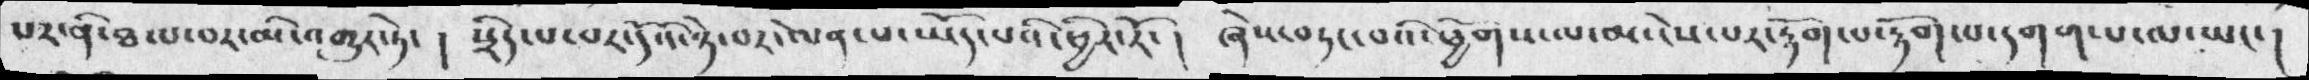པར་ནི་ཐལ་བར་མི་འགྱུར་ཏེ་། སྲིད་པ་བར་དོའི་ཉེ་བར་ལེན་པ་ཡོད་པའི་ཕྱིར་རོ་། ཞེས་བཏང་བའི་ཕྱོགས་ལ་མ་ངེས་པར་རྟོག་པ་རྟོག་པ་དགག་པ་ལ་ཡང་།
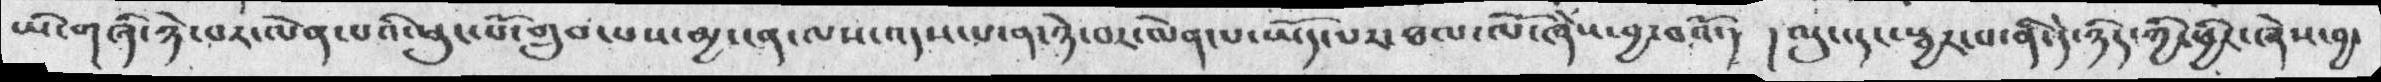ཡི་གཞི་ཉེ་བར་ལེན་པའི་ཕུང་པོ་གྲུབ་པས་མྱ་ངན་ལས་འདས་པ་ན་ཉེ་བར་ལེན་པ་ཡོད་པར་ཐལ་ལོ་ཞེས་བྱ་བའོ་། །ལུང་དང་སྦྱར་པ་ནི་དེ་ཉིད་ཀྱི་ཕྱིར་ཞེས་བྱ་
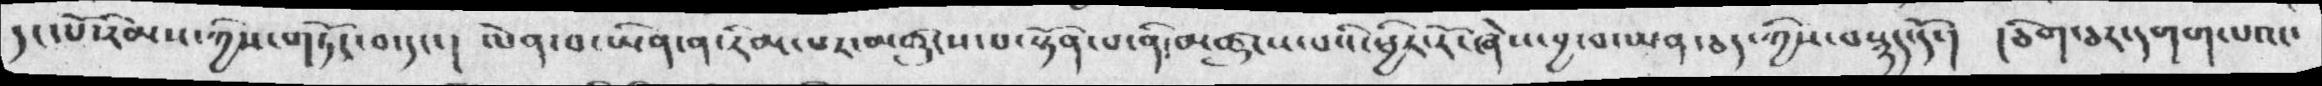དང་པོ་རིམས་ཀྱིས་གཏོང་བ་དང་།  ལེན་བ་ཡིན་ན་རིམ་པར་མཚུངས་པ་སྟོན་པ་ནི་མཚུངས་པའི་ཕྱིར་རོ་ཞེས་བྱ་བ་ཡན་ཅད་ཀྱིས་བསྙད་དོ་།  །ཅིག་ཅར་དགག་པའང་
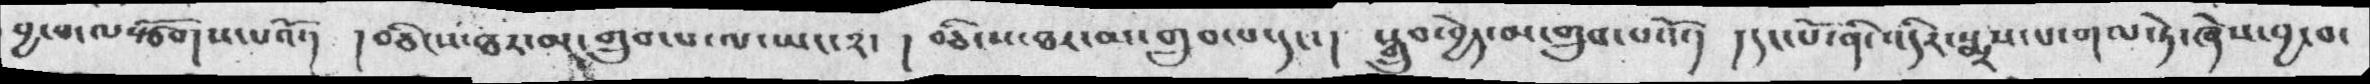བྱ་བ་ལསྩོགས་པའོ་།  །བཅིངས་ཐར་མ་གྲུབ་པ་ལ་ཡང་༢་ ། བཅིངས་ཐར་མ་གྲུབ་པ་དང་།  སྒྲུབ་བྱེད་མ་གྲུབ་པའོ་།  །དང་པོ་ནི་འདིར་སྨྲས་པ་གལ་ཏེ་ཞེས་བྱ་བ་
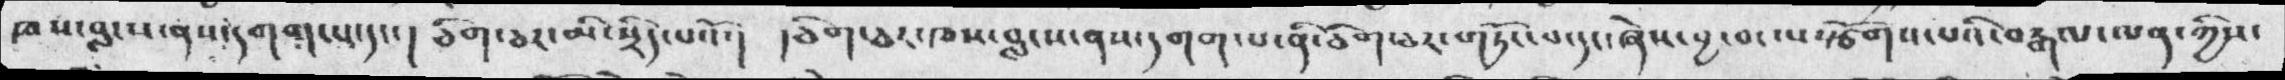ཁས་བླངས་ནས་དགག་པ་དང་། ཅིག་ཅར་མི་སྲིད་པའོ་།  །ཅིག་ཅར་ཁས་བླངས་ནས་དགག་པ་ནི་ཅིག་ཅར་གཏོང་པ་དང་ཞེས་བྱ་བ་ལསྩོགས་པའི་བརྒལ་ལན་ཀྱིས་
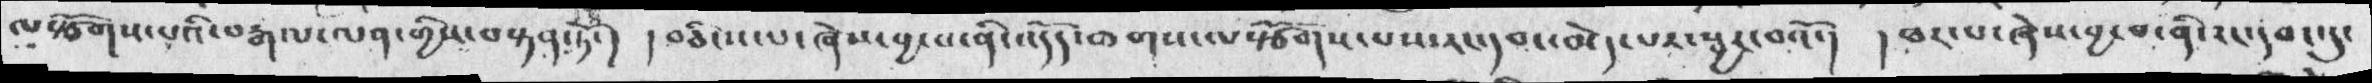ལསྩོགས་པའི་བརྒལ་ལན་གྱིས་བསྟན་ཏོ་།  ། བཅིངས་པ་ཞེས་བྱ་བ་ནི་འདོད་ཆགས་ལསྩོགས་པས་རང་དབང་མེད་པར་སྦྱར་བའོ་།  ། ཐར་པ་ཞེས་བྱ་བ་ནི་རང་དབང་དུ་
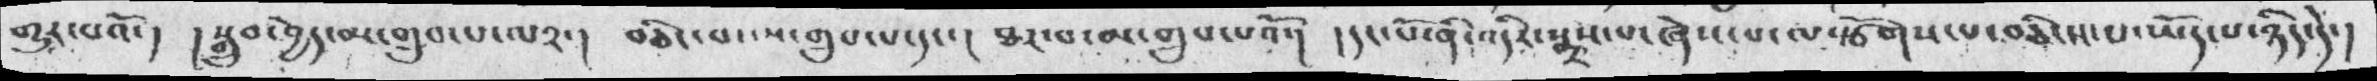གྱུར་པའོ་།  །སྒྲུབ་བྱེ་མ་གྲུབ་པ་ལ༢་།  བཅིང་པ་་ས་གྲུབ་པ་དང་།  ཐར་པ་མ་གྲུབ་པའོ་།  །དང་པོ་ནི་འདིར་སྨྲས་པ་ཞེས་པ་ལསྩོགས་པ་བཅིངས་པ་ཡོད་པ་ཉིད་དེ་།
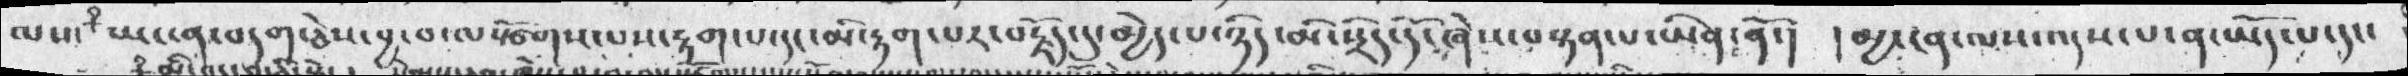ལས་  ཡང་ན་བདག་ཅེས་བྱ་བ་ལསྩོགས་པས་རྟག་པ་དང་མི་རྟག་པར་བརྗོད་དུ་མྱེད་པ་ཉིད་མི་སྲིད་དོ་ཞེས་བསྟན་པ་ཡིན་ནོ་།   ། མྱ་ངན་ལས་འདས་པ་ན་ཡོད་པ་དང་
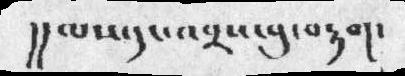།། ལས་དང་འབྲས་བུ་བརྟག་
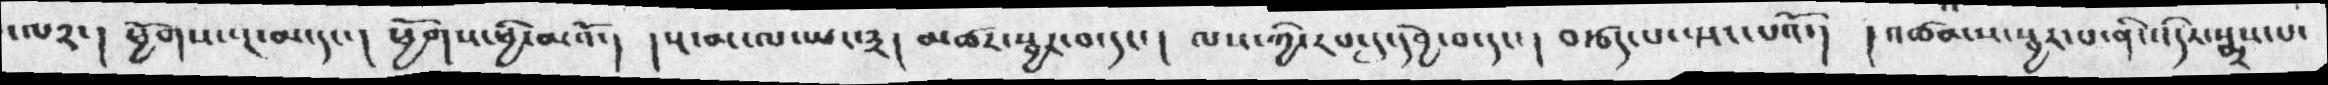་ལ༢་།   ཕྱོགས་རྔ་མ་དང་།  ཕྱོགས་ཕྱི་མའོ་།  ། སྔ་མ་ལ་ཡང་༣།  མཚར་སྦྱར་པ་དང་།  ལས་ཀྱི་རབ་དུ་དབྱེ་བ་དང་།  བརྩད་པ་སྤང་པའོ་།   ། འཚམས་སྦྱར་པ་ནི་འདིར་སྨྲས་པ་
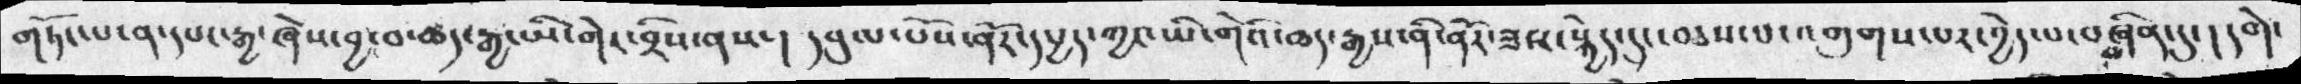གཏོང་པ་ན་དཔང་རྒྱ་ཞེས་བྱ་བ་ཚད་རྒྱ་ཡི་གེར་བྲིས་ནས་།  དབུལ་པོས་ནོར་དཔྱད་ཀྱང་ཡི་གོའ་ཆད་རྒྱས་ནི་ནོར་ཟས་སྐྱེད་དུ་བཅས་པ་འགུགས་པར་བྱེད་པ་བཞིན་དུ་།   དགེ་
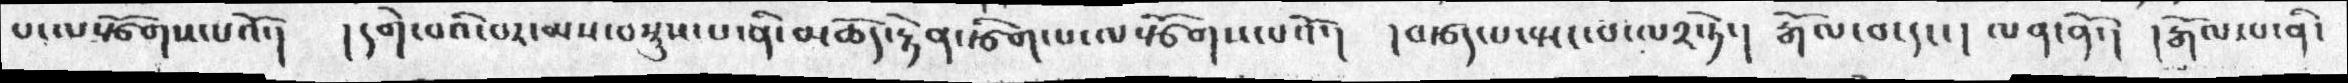པ་ལསྩོགས་པའོ་།  ད དགེ་བའི་བར་མས་བསྡུས་པ་ནི་མཆོད་རྟེན་རྩིག་པ་ལསྩོགས་པའོ་།  །བརྩད་པ་སྤང་པ་ལ༢་ཏེ་།  རྒོལ་བ་དང་། ལན་ནོ་། ། རྒོལ་པ་ནི་
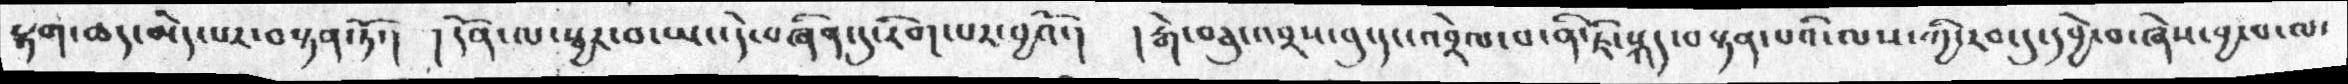སྟག་ཆད་མེད་པར་བསྟན་ཏོ་།  ། དོན་ལ་སྦྱར་བ་ཡང་དེ་བཞིན་དུ་རིག་པར་བྱའོ་།  ། རྒེ་བཅུ་འབྲས་བུ་དང་འབྲེལ་པ་ནི་ཇི་སྐད་བསྟན་པའི་ལས་ཀྱི་རབ་དུ་དབྱེ་བ་ཞེས་བྱ་པ་ལ་
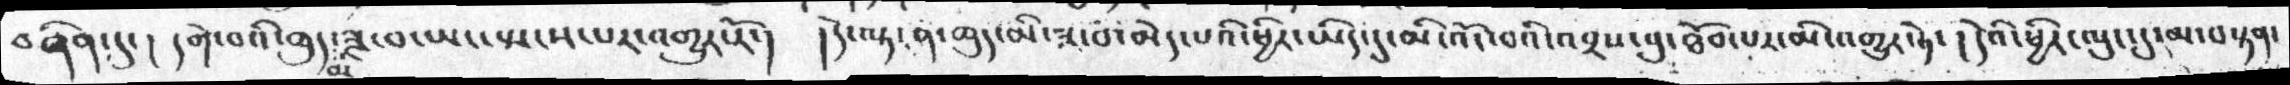བཞིན་དུ་།  དགེ་བའི་ཆུད་མཟླ་བ་ཡང་སྤངས་པར་འགྱུར་རོ་།   ། དེ་ལྟ་ན་ཆུད་མི་ཟ་བ་མེད་པའི་ཕྱིར་ཡིད་དུ་མི་འོང་བའི་འབྲས་བུ་ཐོབ་པར་མི་འགྱུར་ཏེ་།   དེའི་ཕྱིར་ལུང་དུ་མ་སྟན་
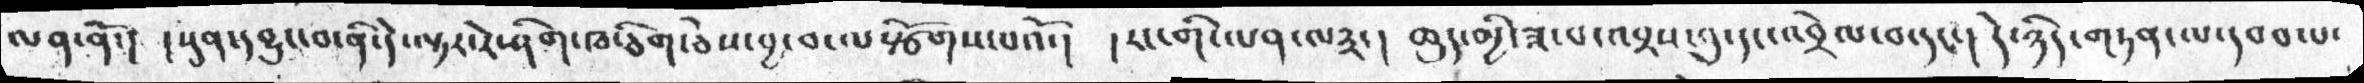ལན་ནོ་།  ། སུན་དབྱུང་བ་ནི་དེ་ལྟར་རེ་ཅིག་ཁ་ཅིག་ཅེས་བྱ་བ་ལསྩོགས་པའོ་།  ། རང་གི་ལན་ལ༣་། ཆུད་མྱི་ཟ་པ་འབྲས་བུ་དང་འབྲེལ་བ་དང་། དེ་ཉིད་གཏན་ལ་དབབ་པ་
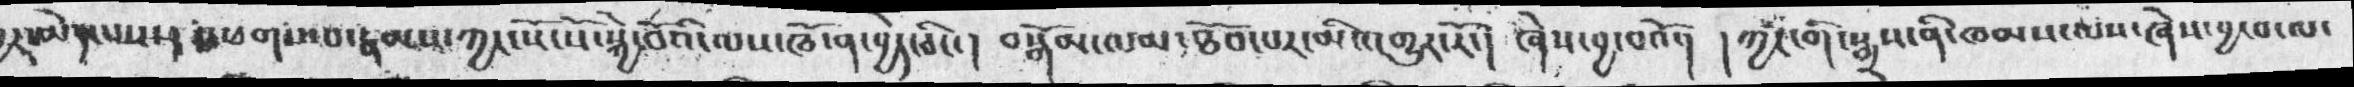མེད་པས་།  འཕགས་པ་རྣམས་ཀྱང་སོ་སོ་སྐྱེ་བོའི་ལས་ཁོ་ན་བྱེད་ཅིང་།  བསྒོམ་ལམ་ཐོབ་པར་མི་འགྱུར་རོ་།  ཞེས་བྱ་བའོ་།  ཀྱང་གི་སྨྲས་ནི་ཁམས་ལས་ཞེས་བྱ་བ་ལ་
